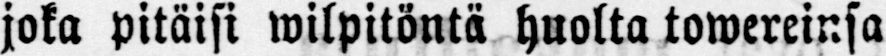joka pitäisi wilpitöntä huolta towereinsa
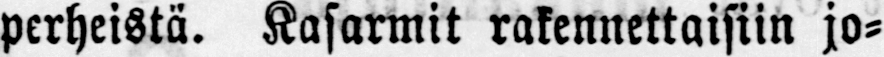perheistä. Kasarmit rakennettaisiin jo-
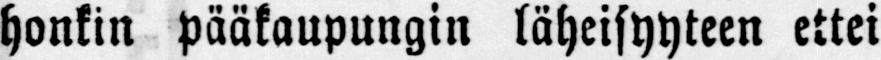honkin pääkaupungin läheisyyteen ettei
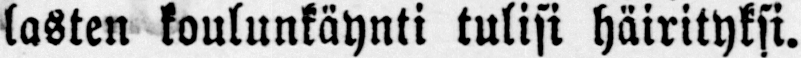lasten koulunkäynti tulisi häirityksi.
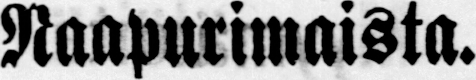Naapurimaista.
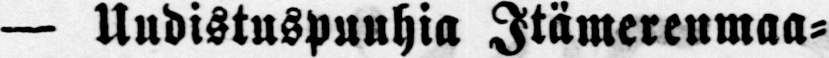— Uudistuspunhia Jtiimereumaa-
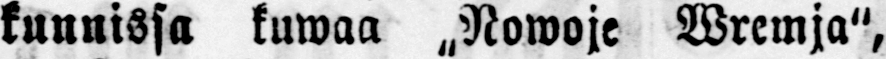kuuuiSsa tuwaa „Nowoje Wremja",
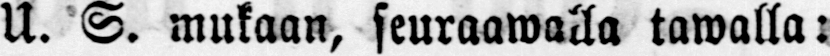U. S. mukaan, seuraawalla tawalla:
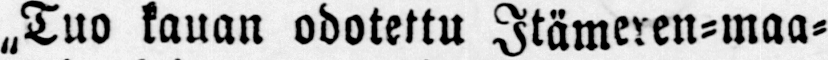„Tuo kauan odotettu Itämeren-maa-
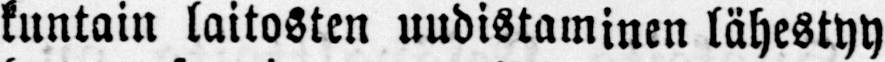kuntain laitosten uudistaminen lähestyy
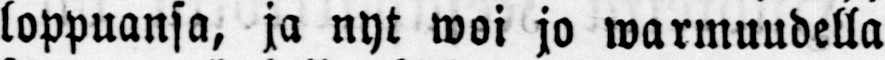loppuansa, ja nyt woi jo warmuudella
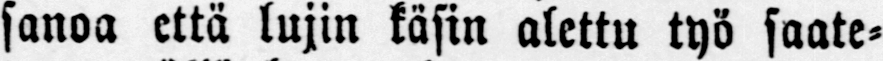sanoa että lujin käsin alettu työ saate-
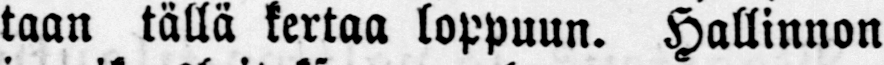taan tällä kertaa loppuun. Hallinnon
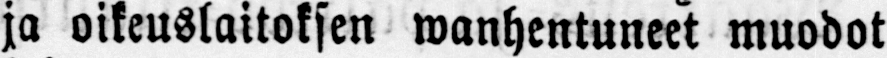ja oikeuslaitoksen wanhentuneet muodot
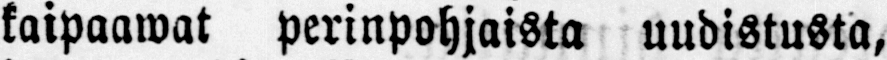kaipaawat perinpohjaista uudistusta,
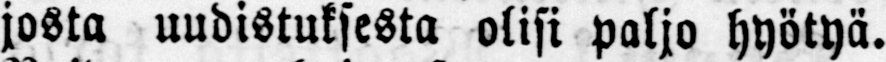josta uudistuksesta olisi paljo hyötyä.
